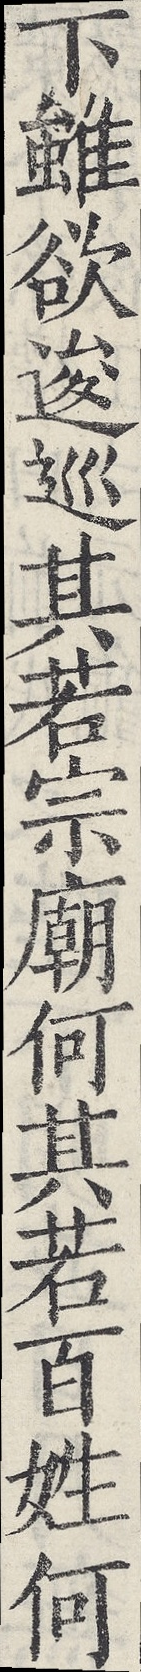下雖欲逡巡其若宗廟何其若百姓何
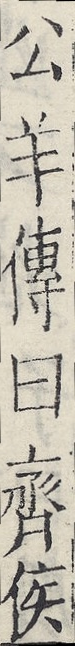公羊傳曰齊侯
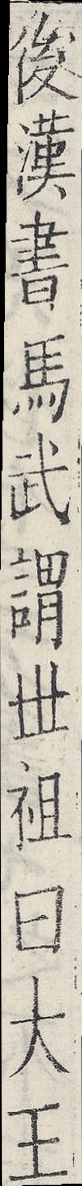後漢書馬武謂世祖曰大王
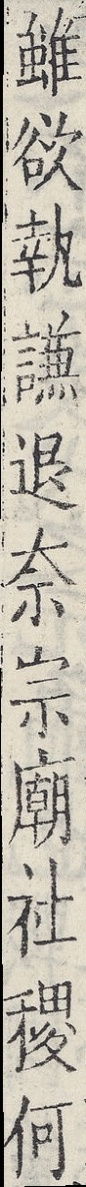雖欲執謙退奈宗廟社稷何
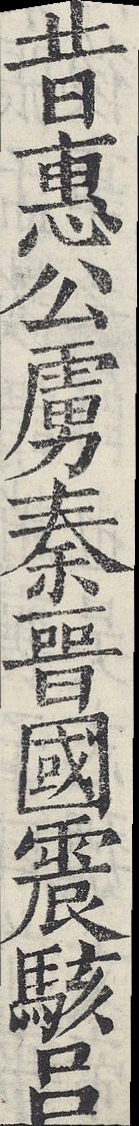昔惠公虜秦晉國震駭呂
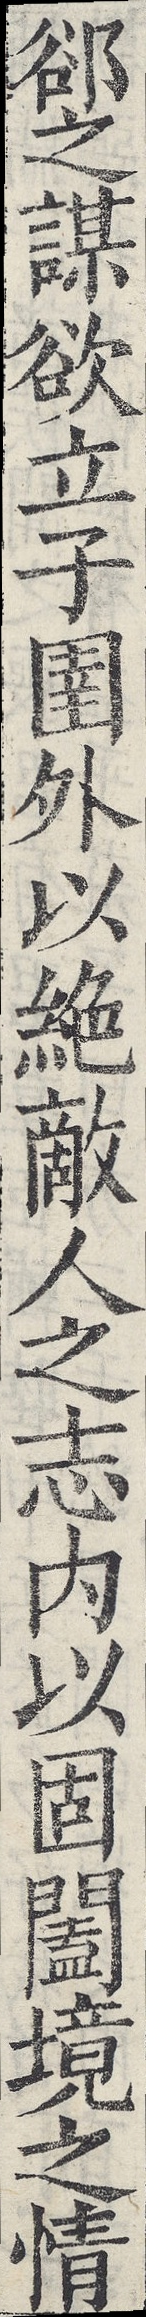郤之謀欲立子圉外以絕敵人之志內以固闔境之情
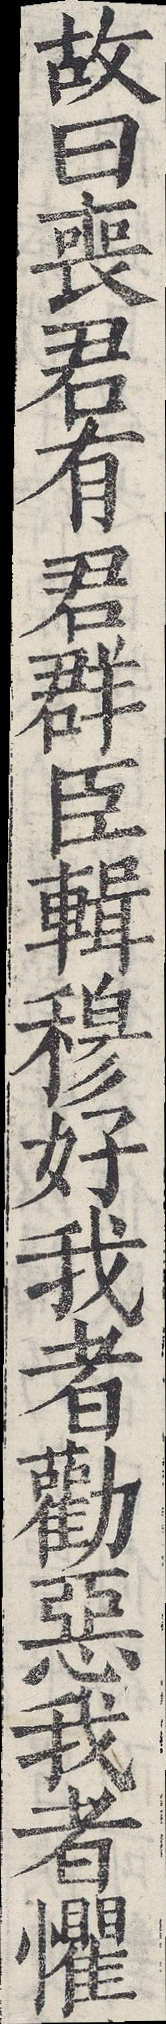故曰喪君有君群臣輯穆好我者勸惡我者懼
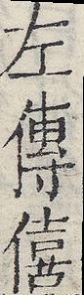左傳僖
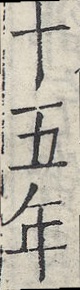十五年
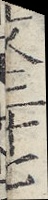文三十七
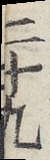二十九
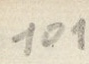101
